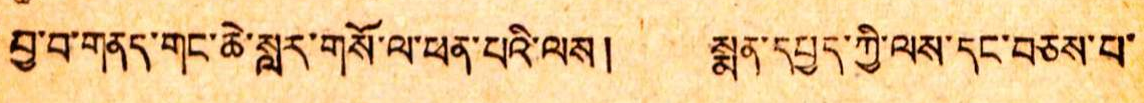བྱ་བ་གནད་གང་ཆེ་སླར་གསོ་ལ་ཕན་པའི་ལས། སྨན་དཔད་ཀྱི་ལས་དང་བཅས་པ་
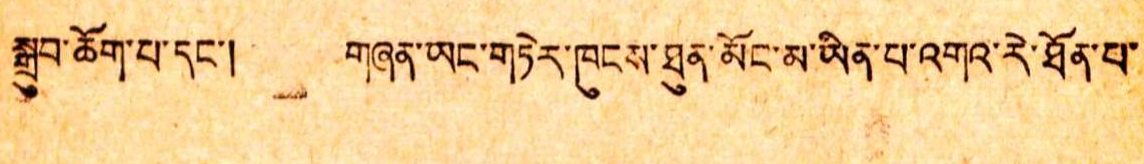སྒྲུབ་ཆོག་པ་དང་། གཞན་ཡང་གཏེར་ཁུངས་ཐུན་མོང་མ་ཡིན་པ་འགའ་རེ་ཐོན་པ་
